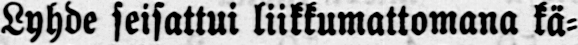Lyhde seisattui liikkumattomana kä-
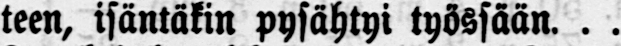teen, isäntäkin pysähtyi työssään. . .
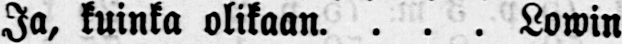Ja, kuinka olikaan. . . . Lowin
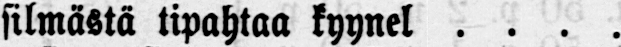silmästä tipahtaa kyynel . . . .
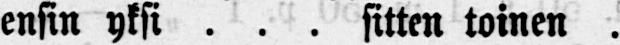ensin yksi . . . sitten toinen .
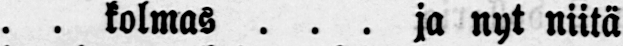. . kolmas ... ja nyt niitä
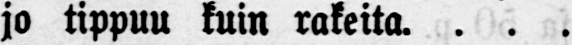jo tippuu kuin rakeita. . . .
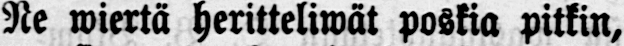Ne wiertä heritteliwät poskia pitkin,
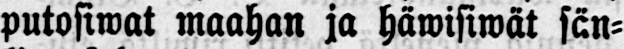putosiwat maahan ja häwisiwät sän-
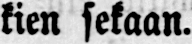kien sekaan.
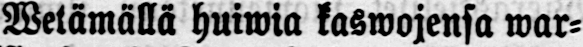Wetämällä huiwia kaswojensa war-
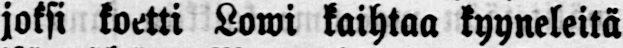joksi koetti Lowi kaihtaa kyyneleitä
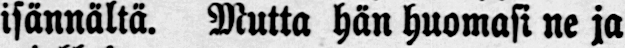isännältä. Mutta hän huomasi ne ja
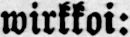wirkkoi:
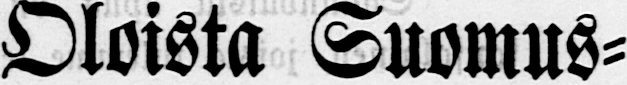Oloista Suomus-
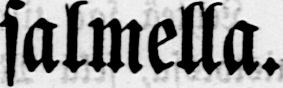salmella.
